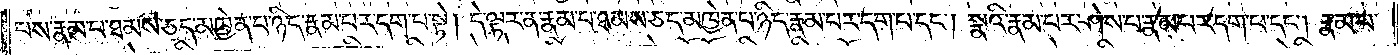པས་རྣམ་པ་ཐམས་ཅད་མཁྱེན་པ་ཉིད་རྣམ་པར་དག་པ་སྟེ། དེ་ལྟར་ན་རྣམ་པ་ཐམས་ཅད་མཁྱེན་པ་ཉིད་རྣམ་པར་དག་པ་དང༌། སྣའི་རྣམ་པར་ཤེས་པ་རྣམ་པར་དག་པ་དང༌། རྣམ་པ་
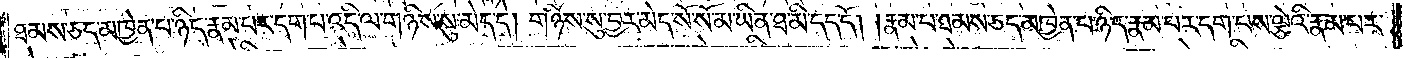ཐམས་ཅད་མཁྱེན་པ་ཉིད་རྣམ་པར་དག་པ་འདི་ལ་གཉིས་སུ་མེད་དེ། གཉིས་སུ་བྱར་མེད་སོ་སོ་མ་ཡིན་ཐ་མི་དད་དོ། །རྣམ་པ་ཐམས་ཅད་མཁྱེན་པ་ཉིད་རྣམ་པར་དག་པས་ལྕེའི་རྣམ་པར་
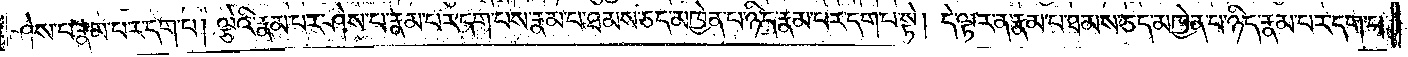ཤེས་པ་རྣམ་པར་དག་པ། ལྕེའི་རྣམ་པར་ཤེས་པ་རྣམ་པར་དག་པས་རྣམ་པ་ཐམས་ཅད་མཁྱེན་པ་ཉིད་རྣམ་པར་དག་པ་སྟེ། དེ་ལྟར་ན་རྣམ་པ་ཐམས་ཅད་མཁྱེན་པ་ཉིད་རྣམ་པར་དག་པ་
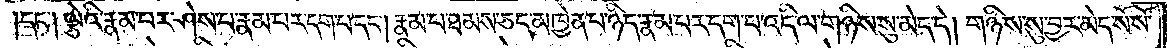དང་༑ ལྕེའི་རྣམ་པར་ཤེས་པ་རྣམ་པར་དག་པ་དང༌། རྣམ་པ་ཐམས་ཅད་མཁྱེན་པ་ཉིད་རྣམ་པར་དག་པ་འདི་ལ་གཉིས་སུ་མེད་དེ། གཉིས་སུ་བྱར་མེད་སོ་སོ་
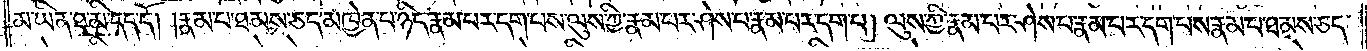མ་ཡིན་ཐ་མི་དད་དོ། །རྣམ་པ་ཐམས་ཅད་མཁྱེན་པ་ཉིད་རྣམ་པར་དག་པས་ལུས་ཀྱི་རྣམ་པར་ཤེས་པ་རྣམ་པར་དག་པ། ལུས་ཀྱི་རྣམ་པར་ཤེས་པ་རྣམ་པར་དག་པས་རྣམ་པ་ཐམས་ཅད་
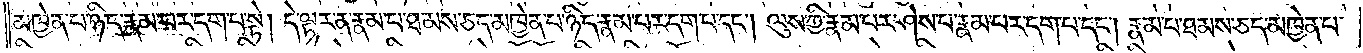མཁྱེན་པ་ཉིད་རྣམ་པར་དག་པ་སྟེ། དེ་ལྟར་ན་རྣམ་པ་ཐམས་ཅད་མཁྱེན་པ་ཉིད་རྣམ་པར་དག་པ་དང༌། ལུས་ཀྱི་རྣམ་པར་ཤེས་པ་རྣམ་པར་དག་པ་དང༌། རྣམ་པ་ཐམས་ཅད་མཁྱེན་པ་
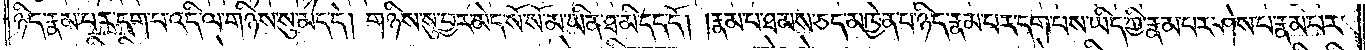ཉིད་རྣམ་པར་དག་པ་འདི་ལ་གཉིས་སུ་མེད་དེ། གཉིས་སུ་བྱར་མེད་སོ་སོ་མ་ཡིན་ཐ་མི་དད་དོ། །རྣམ་པ་ཐམས་ཅད་མཁྱེན་པ་ཉིད་རྣམ་པར་དག་པས་ཡིད་ཀྱི་རྣམ་པར་ཤེས་པ་རྣམ་པར་
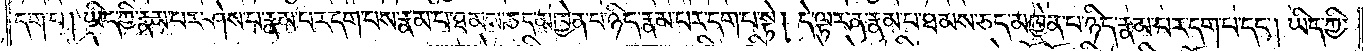དག་པ། ཡིད་ཀྱི་རྣམ་པར་ཤེས་པ་རྣམ་པར་དག་པས་རྣམ་པ་ཐམས་ཅད་མཁྱེན་པ་ཉིད་རྣམ་པར་དག་པ་སྟེ། དེ་ལྟར་ན་རྣམ་པ་ཐམས་ཅད་མཁྱེན་པ་ཉིད་རྣམ་པར་དག་པ་དང༌། ཡིད་ཀྱི་
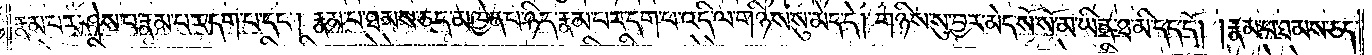རྣམ་པར་ཤེས་པ་རྣམ་པར་དག་པ་དང༌། རྣམ་པ་ཐམས་ཅད་མཁྱེན་པ་ཉིད་རྣམ་པར་དག་པ་འདི་ལ་གཉིས་སུ་མེད་དེ། གཉིས་སུ་བྱར་མེད་སོ་སོ་མ་ཡིན་ཐ་མི་དད་དོ། །རྣམ་པ་ཐམས་ཅད་
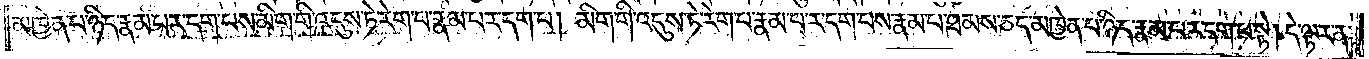མཁྱེན་པ་ཉིད་རྣམ་པར་དག་པས་མིག་གི་འདུས་ཏེ་རེག་པ་རྣམ་པར་དག་པ། མིག་གི་འདུས་ཏེ་རེག་པར་དག་པས་རྣམ་པ་ཐམས་ཅད་མཁྱེན་པ་ཉིད་རྣམ་པར་དག་པ་སྟེ། དེ་ལྟར་ན་
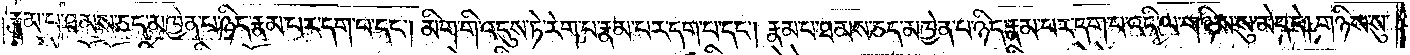རྣམ་པ་ཐམས་ཅད་མཁྱེན་པ་ཉིད་རྣམ་པར་དག་པ་དང༌། མིག་གི་འདུས་ཏེ་རེག་པ་རྣམ་པར་དག་པ་དང༌། རྣམ་པ་ཐམས་ཅད་མཁྱེན་པ་ཉིད་རྣམ་པར་དག་པ་འདི་ལ་གཉིས་སུ་མེད་དེ། གཉིས་སུ་
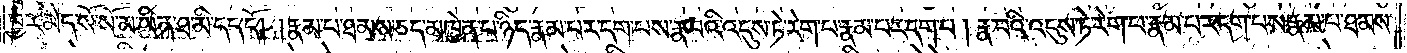བྱར་མེད་སོ་སོ་མ་ཡིན་ཐ་མི་དད་དོ། །རྣམ་པ་ཐམས་ཅད་མཁྱེན་པ་ཉིད་རྣམ་པར་དག་པས་རྣ་བའི་འདུས་ཏེ་རེག་པ་རྣམ་པར་དག་པ། རྣ་བའི་འདུས་ཏེ་རེག་པ་རྣམ་པར་དག་པས་རྣམ་པ་ཐམས་
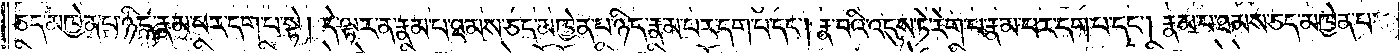ཅད་མཁྱེན་པ་ཉིད་རྣམ་པར་དག་པ་སྟེ། དེ་ལྟར་ན་རྣམ་པ་ཐམས་ཅད་མཁྱེན་པ་ཉིད་རྣམ་པར་དག་པ་དང༌། རྣ་བའི་འདུས་ཏེ་རེག་པ་རྣམ་པར་དག་པ་དང༌། རྣམ་པ་ཐམས་ཅད་མཁྱེན་པ་
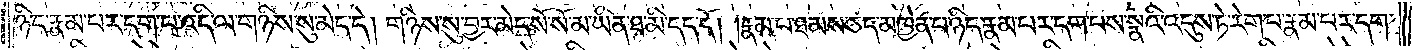ཉིད་རྣམ་པར་དག་པ་འདི་ལ་གཉིས་སུ་མེད་དེ། གཉིས་སུ་བྱར་མེད་སོ་སོ་མ་ཡིན་ཐ་མི་དད་དོ། །རྣམ་པ་ཐམས་ཅད་མཁྱེན་པ་ཉིད་རྣམ་པར་དག་པས་སྣའི་འདུས་ཏེ་རེག་པ་རྣམ་པར་དག་
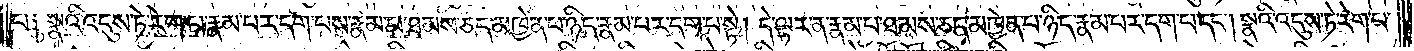པ༑ སྣའི་འདུས་ཏེ་རེག་པ་རྣམ་པར་དག་པས་རྣམ་པ་ཐམས་ཅད་མཁྱེན་པ་ཉིད་རྣམ་པར་དག་པ་སྟེ། དེ་ལྟར་ན་རྣམ་པ་ཐམས་ཅད་མཁྱེན་པ་ཉིད་རྣམ་པར་དག་པ་དང༌། སྣའི་འདུས་ཏེ་རེག་པ་
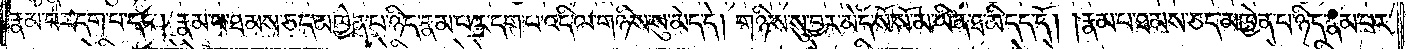རྣམ་པར་དག་པ་དང༌། རྣམ་པ་ཐམས་ཅད་མཁྱེན་པ་ཉིད་རྣམ་པར་དག་པ་འདི་ལ་གཉིས་སུ་མེད་དེ། གཉིས་སུ་བྱར་མེད་སོ་སོ་མ་ཡིན་ཐ་མི་དད་དོ། །རྣམ་པ་ཐམས་ཅད་མཁྱེན་པ་ཉིད་རྣམ་པར་
